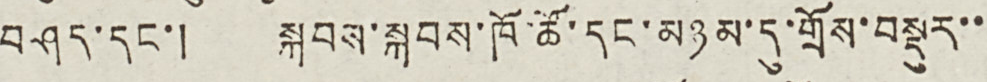བཤད་དང་། སྐབས་སྐབས་ཁོ་ཚོ་དང་མཉམ་དུ་གྲོས་བསྡུར་་
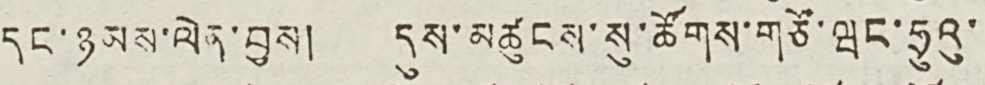དང་ཉམས་ལེན་བྱས། དུས་མཚུངས་སུ་ཚོགས་གཙོ་ཝང་ཧྲུའུ་
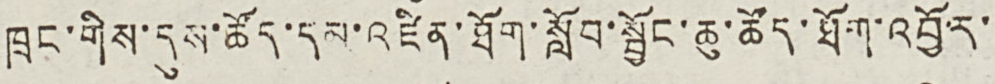ཁྲང་གིས་དུས་ཚོད་དམ་འཛིན་ཐོག་སློབ་སྦྱོང་ཆུ་ཚོད་ཐོག་འབྱོར་
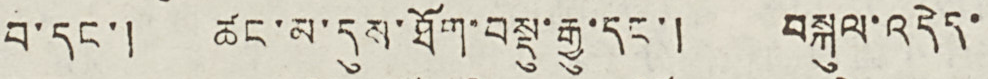བ་དང་། ཚང་མ་དུས་ཐོག་བསྡུ་རྒྱུ་དང་། བསྐུལ་འདེད་
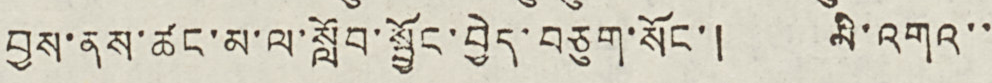བྱས་ནས་ཚང་མ་ལ་སློབ་སྦྱོང་བྱེད་བཅུག་སོང་། མི་འགའ་་
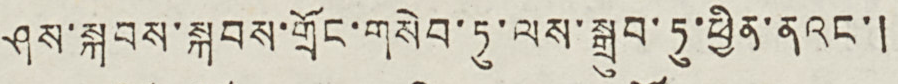ཤས་སྐབས་སྐབས་གྲོང་གསེབ་ཏུ་ལས་སྒྲུབ་ཏུ་ཕྱིན་ནའང་།
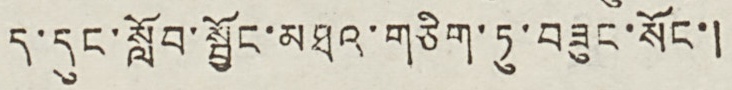ད་དུང་སློབ་སྦྱོང་མཐའ་གཅིག་ཏུ་བཟུང་སོང་།
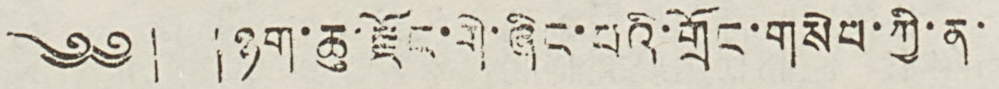༄༅། །ཉག་ཆུ་རྫོང་གི་ཞིང་པའི་གྲོང་གསེབ་ཀྱི་ན་
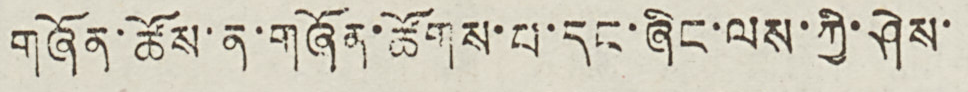གཞོན་ཚོས་ན་གཞོན་ཚོགས་པ་དང་ཞིང་ལས་ཀྱི་ཤེས་
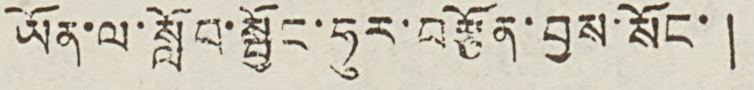ཡོན་ལ་སློབ་སྦྱོང་ཧུར་བརྩོན་བྱས་སོང་།
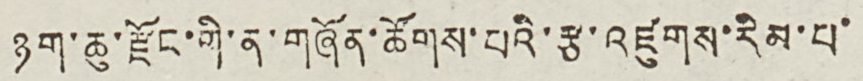ཉག་ཆུ་རྫོང་གི་ན་གཞོན་ཚོགས་པའི་རྩ་འཛུགས་རིམ་པ་
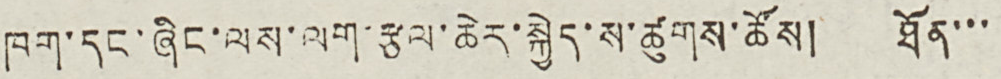ཁག་དང་ཞིང་ལས་ལག་རྩལ་ཆེར་སྐྱེད་ས་ཚུགས་ཚོས། ཐོན་་་
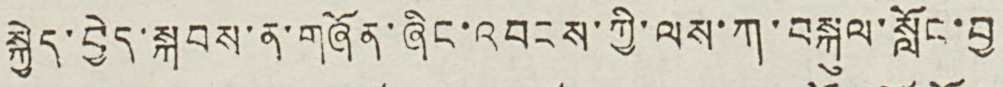སྐྱེད་བྱེད་སྐབས་ན་གཞོན་ཞིང་འབངས་ཀྱི་ལས་ཀ་བསྐུལ་སློང་བྱ
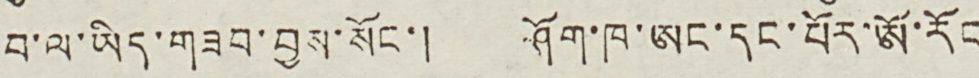བ་ལ་ཡིད་གཟབ་བྱས་སོང་། ཤོག་ཁ་ཨང་དང་པོར་ཨོ་རོང
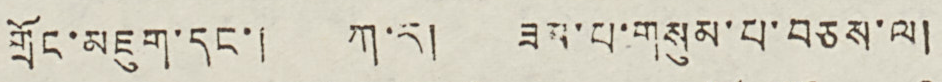གྲོང་མཇུག་དང་། ཀ་ར། ཟམ་པ་གསུམ་པ་བཅས་ལ།
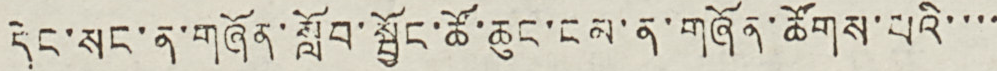དེང་སང་ན་གཞོན་སློབ་སྦྱོང་ཚོ་ཆུང་ངམ་ན་གཞོན་ཚོགས་པའི་་་་
